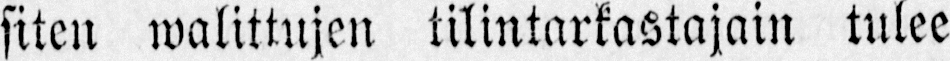siten walittujen tilintarkastajain tulee
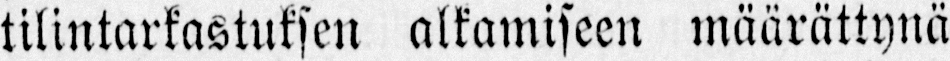tilintarkastuksen alkamiseen määrättynä
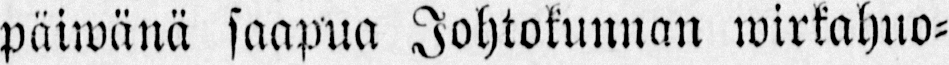päiwänä saapua Johtokunnan wirkahuo-
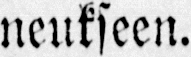neukseen.
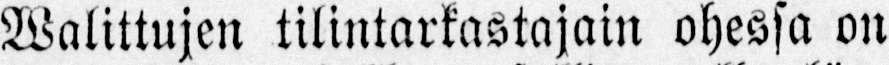Walittujen tilintarkastajain ohessa on
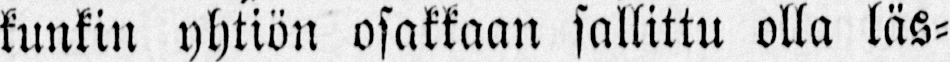kunkin yhtiön osakkaan sallittu olla läs-
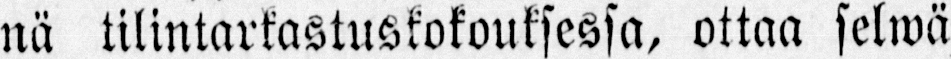nä tilintarkastuskokouksessa, ottaa selwä
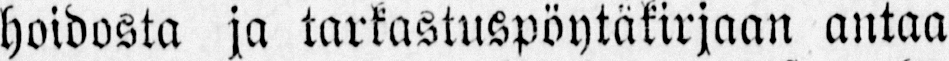hoidosta ja tarkastuspöytäkirjaan antaa
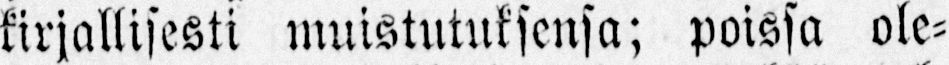kirjallisesti muistutuksensa; poissa ole-
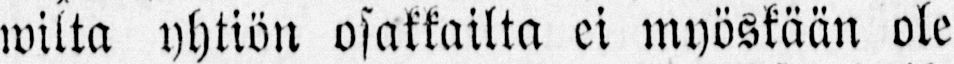wilta yhtiön osakkailta ei myöskään ole
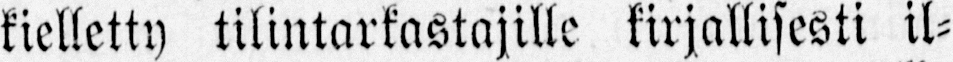kielletty tilintarkastajille kirjallisesti il-
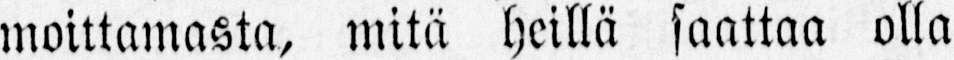moittamasta, mitä heillä saattaa olla
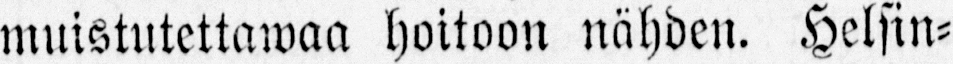muistutettawaa hoitoon nähden. Helsin-
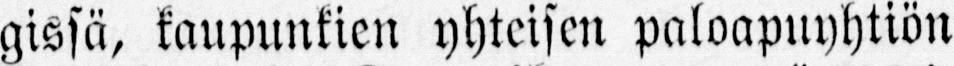gissä, kaupunkien yhteisen paloapuyhtiön
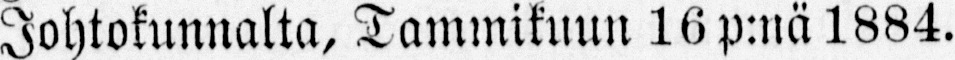Johtokunnalta, Tammikuun 16 p:nä 1884.
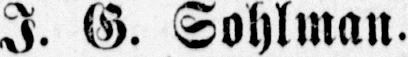I. G. Sohlman.
